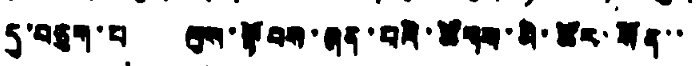དུ་བཅུག་པ ལུས་སྟོབས་ཞན་པའི་ཚོགས་མི་ཚོར་སོན་་
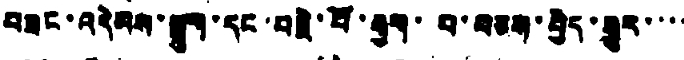བཟང་འདེམས་སྒྲུག་དང་བརྗེ་པོ་རྒྱག་བ་འཅས་བྱེད་རྒྱུར་་་་
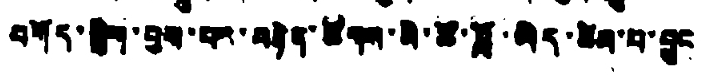བགོད་སྒྲིག་བྱས་པར་བརྟེན་ཚོགས་མི་ཚོ་བློ་ཡིད་ཚིས་པ་བྱུང
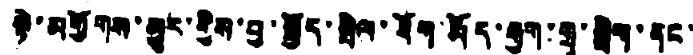སྟེ་མགྱོགས་མྱུར་གྱིས་བྱ་སྤྱོད་སྤེལ་ཐོག་རྨོད་རྒྱག་གྲྭ་སྒྲིག་ནང་
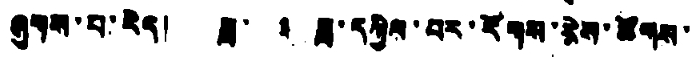ཞུགས་པ་རེད། ཟླ་ ༣ ཟླ་དཀྱིལ་བར་རོགས་རེས་ཚོགས་
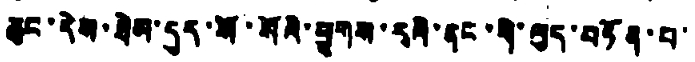ཆུང་དེས་ཐེམ་དུད་སོ་སོའི་ཕྱུགས་རྭའི་ནང་གི་ལུད་བཏོན་པ་
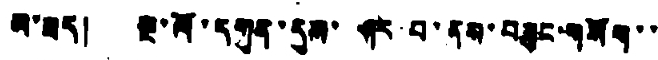མ་ཟད། སྔ་ལོ་དགུན་དུས་ཤར་བ་ནས་བཟུང་གསོག་་
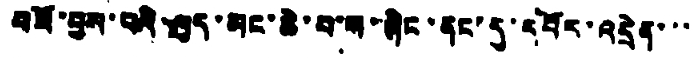བཟོ་བྱས་པའི་ལུད་མང་ཆེ་བ་ས་ཞིང་ནང་དུ་དབོར་འདྲེན་་་
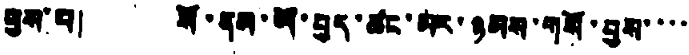བྱས་པ། སོ་ནམ་ཡོ་བྱད་ཚང་མར་ཉམས་གསོ་བྱས་་་་
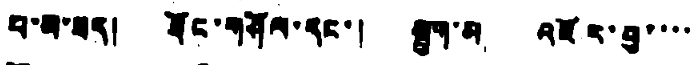པ་མ་ཟད། ཐོང་གཤོལ་དང་། སྤུག་མ འཇོར་བྱ་་་་
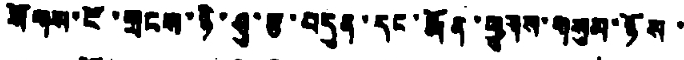སོགས་ངོ་གྲངས་ཉི་ཤུ་རྩ་བདུན་དང་རྨོན་ཕྱུགས་གསུམ་ཉོས་
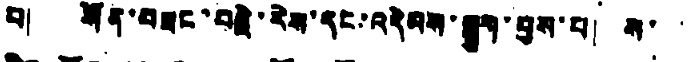པ། སོན་བཟང་བརྗེ་རེས་དང་འདེམས་སྒྲུག་བྱས་པ། ས་་
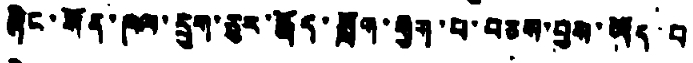ཞིང་སོན་ཁལ་དྲུག་ཅུར་རྨོད་སློག་རྒྱག་པ་བཅས་བྱས་ཡོད་པ
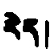རེད།
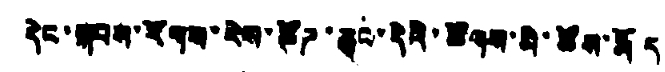དེང་སྐབས་རོགས་རེས་ཚོཌ་ཆུང་དེའི་ཚོགས་མི་ཚོས་རྨོད
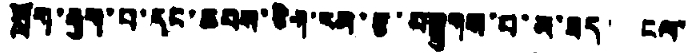སློག་རྒྱག་པ་དང་ཆབས་ཅིག་རམ་རྩ་བསྒྲུགས་པ་མ་ཟད། ངས་
